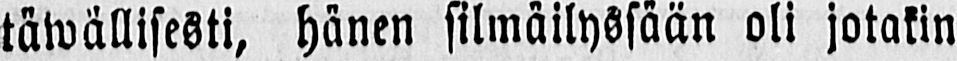täwällisesti, hänen silmäilyssään oli jotakin
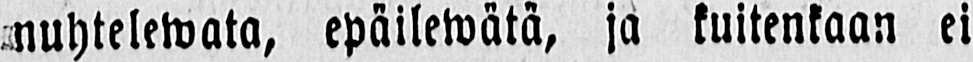nuhtelewata, epäilewätä, ja kuitenkaan ei
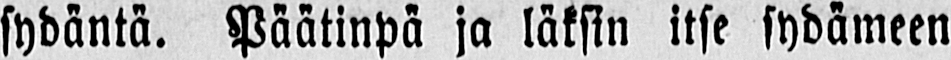sydäntä. Päätinpä ja läksin itse sydämeen
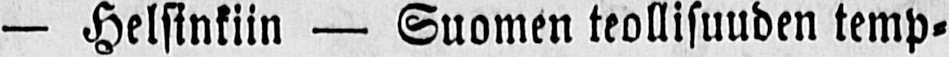— Helsinkiin — Suomen teollisuuden temp-
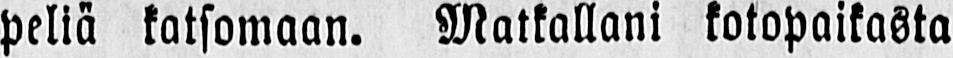peliä katsomaan. Matkallani kotopaikasta
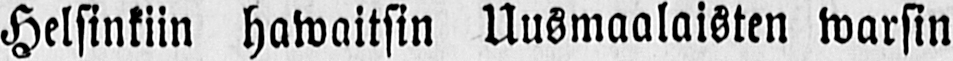Helsinkiin hawaitsin Uusmaalaisten warsin
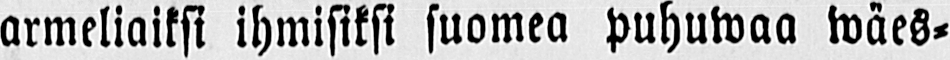armeliaiksi ihmisiksi suomea puhuwaa wäes-
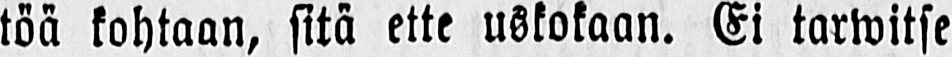töä kohtaan, sitä ette uskokaan. Ei tarwitse
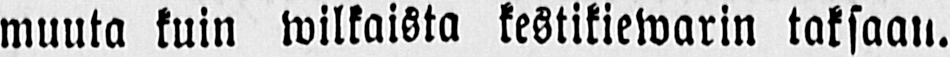muuta kuin wilkaista kestikiewarin taksaan.
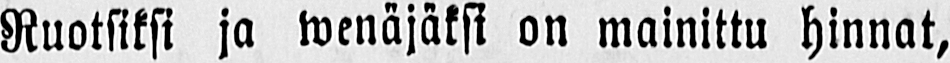Ruotsiksi ja wenäjäksi on mainittu hinnat,
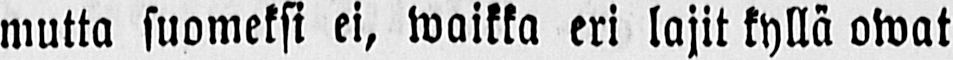mutta suomeksi ei, waikka eri lajit kyllä owat
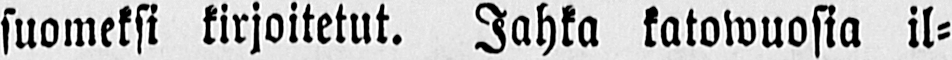suomeksi kirjoitetut. Jahka katowuosia il-
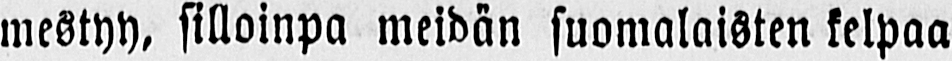mestyy, silloinpa meidän suomalaisten kelpaa
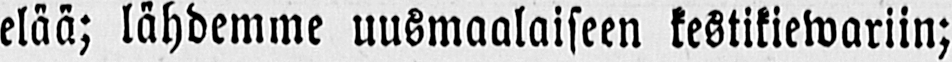elää; lähdemme uusmaalaiseen kestikiewariin;
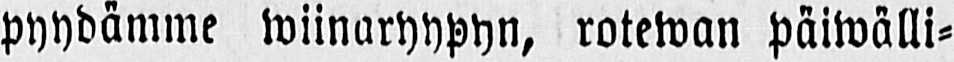pyydämme wiinaryypyn, rotewan päiwälli-
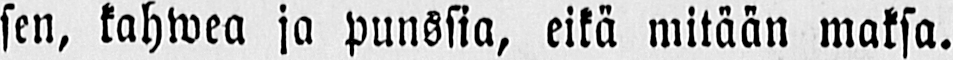sen, kahwea ja punssia, eikä mitään maksa.
